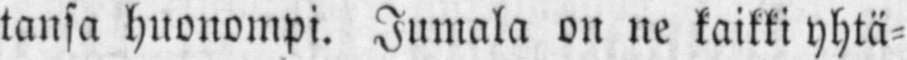tansa huonompi. Jumala on ne kaikki yhtä-
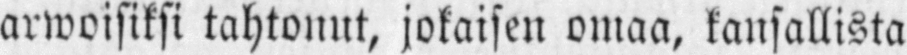arwoisiksi tahtonut, jokaisen omaa, kansallista
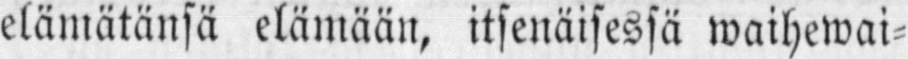elämätänsä elämään, itsenäisessä waihewai-
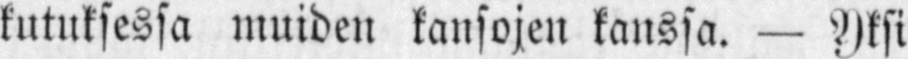kutuksessa muiden kansojen kanssa. — Yksi
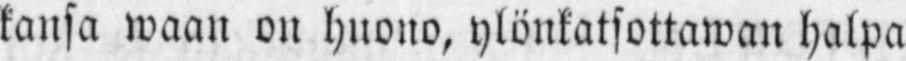kansa waan on huono, ylönkatsottawan halpa
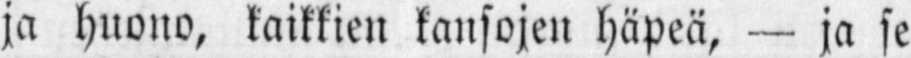ja huono, kaikkien kansojen häpeä, — ja se
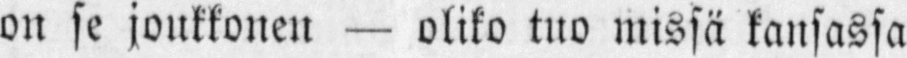on se joukkonen — oliko tuo missä kansassa
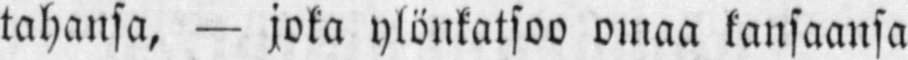tahansa, — joka ylönkatsoo omaa kansaansa
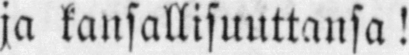ja kansallisuuttansa!
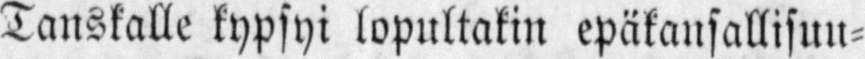Tanskalle kypsyi lopultakin epäkansallisuu-
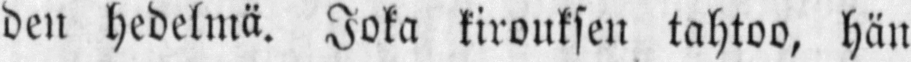den hedelmä. Joka kirouksen tahtoo, hän
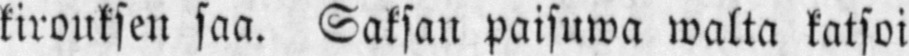kirouksen saa. Saksan paisuwa walta katsoi
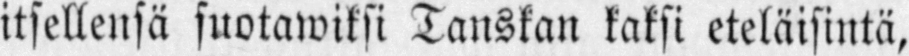itsellensä suotawiksi Tanskan kaksi eteläisintä,
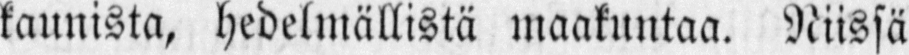kaunista, hedelmällistä maakuntaa. Niissä
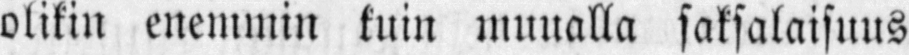olikin enemmin kuin muualla saksalaisuus
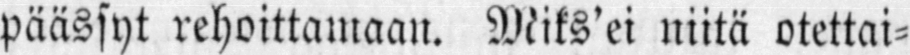päässyt rehoittamaan. Miks'ei niitä otettai-
